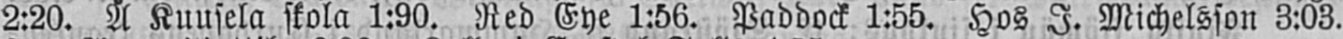2:20. Å Kuusela skola 1:90. Red Eye 1:56. Paddock 1:55. Hos I. Michelsson 3:03.
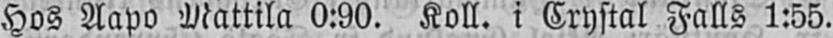Hos Aapo Mattila 0:90. Koll. i Crystal Falls 1:55.
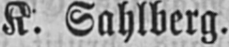K. Sahlberg.
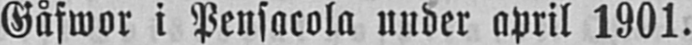Gåfwor i Pensacola under april 1901.
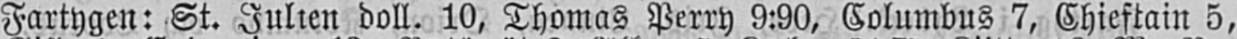Fartygen: St. Julten doll. 10, Thomas Perry 9:90, Columbus 7, Chieftain 5,
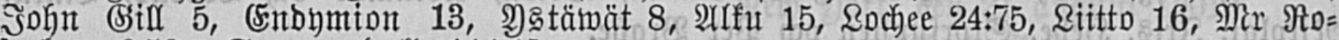John Gill b, Endymion 13, Ystäwät 8, Alku 15, Lochee 24:75, Liitto 16, Mr Ro-
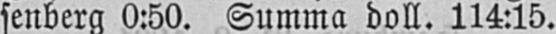senberg 0:50. Summa doll. 114:15.
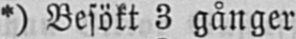*) Besökt 3 gånger.
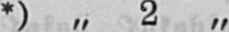**) " 2 "
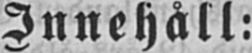Innehåll:
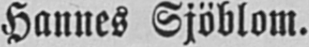Hannes Sjöblom.
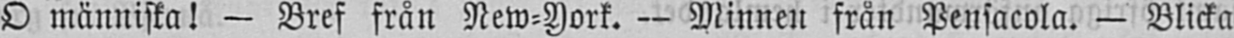O människa! — Bref från New-York. — Minnen från Pensacola. — Blicka
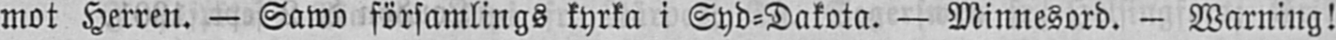mot Herren. — Sawo församlings kyrka i Syd-Dakota. — Minnesord. — Warning!
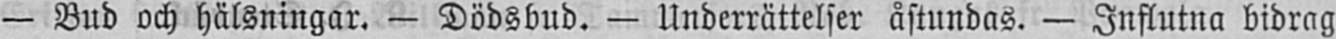— Bud och hälsningar. — Dödsbud. — Underrättelser åstundas. — Influtna bidrag
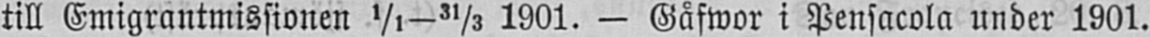till Emigrantmissionen 1/1-31/3 1901. — Gåfwor i Pensacola under 1901.
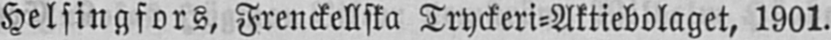Helsingfors, Frenckellska Tryckeri-Aktiebolaget, 1901.
